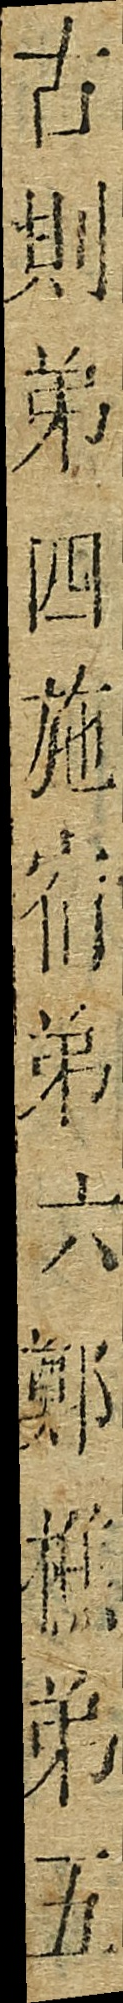古則弟四施宿弟六鄭樵弟五
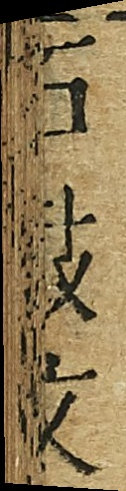石鼓文
